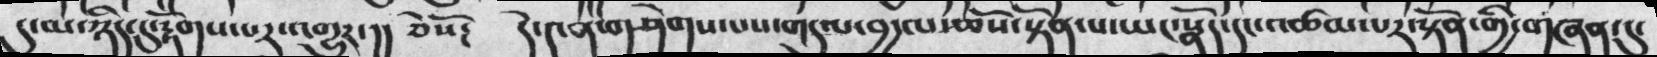དུ་མ་ཉིད་དུ་རྟོགས་པར་འགྱུར་།།  ཅེསོ༴  དེ་༤ན་གཤེགས་པས་གདུལ་བྱ་ལ་ཆོས་སྟོན་པ་ཡང་སྣོད་དང་འཚམ་པར་སྟོན་གྱི་གཞན་དུ་
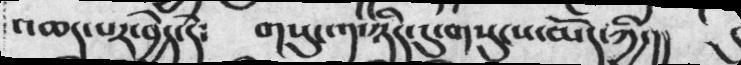འཆད་པར་བྱེད་དེ༴   གསུང་༡་ཉིད་དུ་གསུངས་མོད་ཀྱི་།།
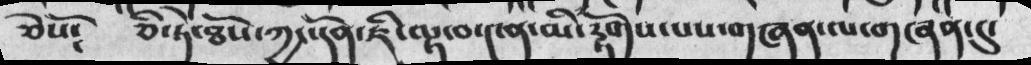ཅེསོ༴  ཅི་ཏེ་ཐོས་ཀྱང་དོན་ཇི་ལྟ་བ་༤ན་མི་རྟོགས་པས་གཞན་ལ་གཞན་དུ་
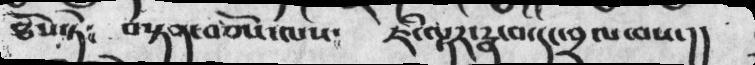ཐོས་ཏེ༴  བསྟན་བཅོས་ལས༴  ཇི་ལྟར་རྣ་བ་དང་བྲལ་བས་།།
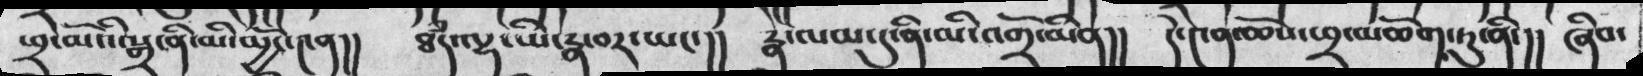ཕྲ་མོའི་སྒྲ་ནི་མི་མྱོང་༤ན།།  ཐཾད་ལྡ་ཡི་རྣ་བར་ཡང་།།  རྣ་ལམ་དུ་ནི་མི་འགྲོ་མིན།།  དེ་༤ན་ཆོས་ཕྲ་མཆོག་ཏུ་ནི་།།  ཞིབ་
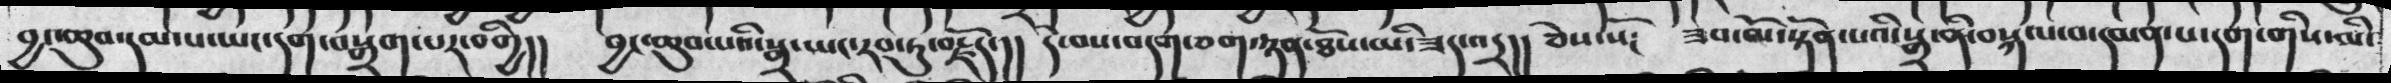བྱང་ཆུབ་དམ་པ་ཡང་དག་བསྒག་པར་བགྱི།།  བྱང་ཆུབ་པའི་སྒྲ་ཡང་རབ་ཏུ་བརྗོད་།།  དེ་བས་བདག་ཅག་ཉན་ཐོས་མི་ཟད་འདྲ།།  ཟབ་མོ་སྟོན་པའི་སྒྲ་ནི་བསྐལ་བ་དམན་དག་གིས་མི་
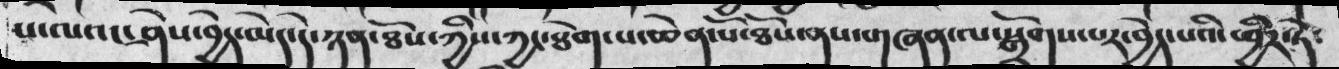པ་ལའང་ཤེས་བྱེད་མེད་དེ་ཉན་ཐོས་ཀྱིས་ཀྱང་ཐེག་པ་ཆེན་པོ་ཐོས་ནས་གཞན་ལ་སྒྲོགས་པར་བྱེད་པའི་ཕྱིར་ཏེ་
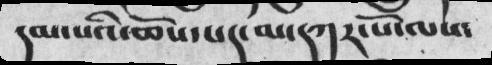དམ་པའི་ཆོས་པད་མ་དཀར་པོ་ལས༴
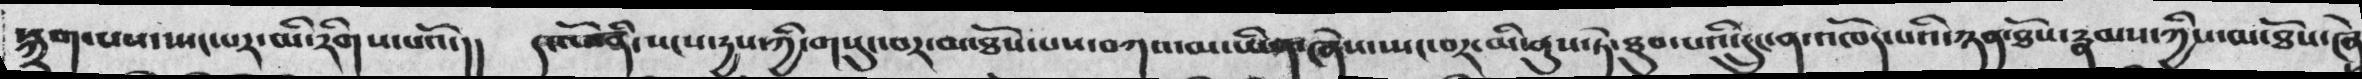སྐྲག་པས་སྤང་པར་མི་རིགས་པའོ་།།  དང་པོ་ནི་སངས་དྱས་ཀྱི་གསུང་བར་མ་ཐོས་པས་བཀའ་མ་ཡིབ་ཞེས་ཡང་བར་མི་ནུས་ཏེ་ཐུབ་པའི་དྲུང་ན་འཁོར་པའི་ཉན་ཐོས་རྣམས་ཀྱིས་མ་ཐོས་ཞེ
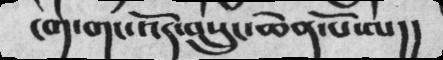ངག་གང་འོད་བསྲུང་ཆེན་པོ་ལ།།
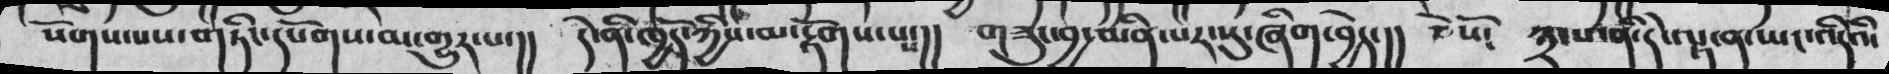སོགས་པས་གཏིང་དཔོགས་མ་གྱུར་པ་།།  དེ་ནི་ཁྱོད་ཀྱིས་མ་རྟོགས་པ་།།  གཟུང་བྱ་མིན་པར་སུ་ཞིག་བྱེད་།།  ཅེསོ༴  ༣་པ་ནི་དེ་ལྟ་ན་ཡང་འདིའི་
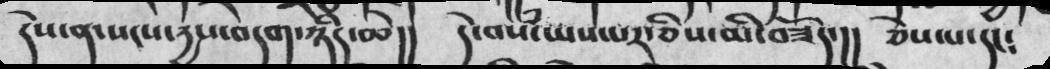དེས་ན་སངས་རྱས་བདག་ཉིད་ཆེ།།  དེ་བསཾ་ཡས་པར་ཅིས་མི་བཟོད་།།  ཅེས་པ་དང༴
